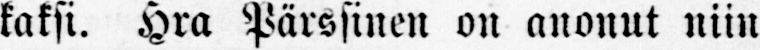kaksi. Hra Pärssinen on anonut niin
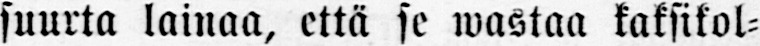suurta lainaa, että se wastaa kaksikol-
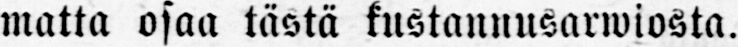matta osaa tästä kustannusarwiosta.
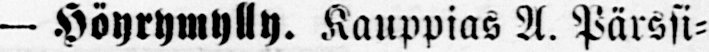— Höyrymylly. Kauppias A. Pärssi-
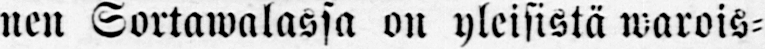nen Sortawalassa on yleisistä warois-
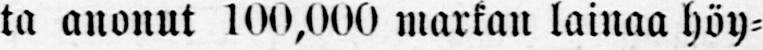ta anonut 100,000 markan lainaa höy-
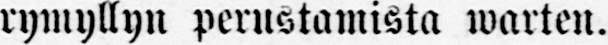rymyllyn perustamista warten.
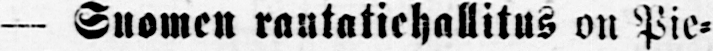— Suomen rautatiehallitus on Pie-
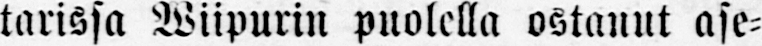tarissa Wiipurin puolella ostanut ase-
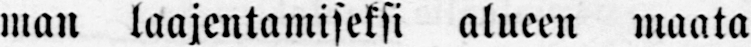man laajentamiseksi alueen maata
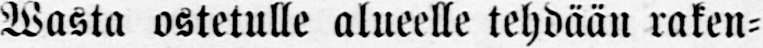Wasta ostetulle alueelle tehdään raken-
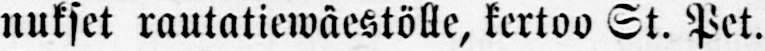nukset rautatiewäestölle, kertoo St. Pet.
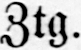Ztg.
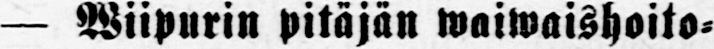— Wiipurin pitäjän waiwaishoito-
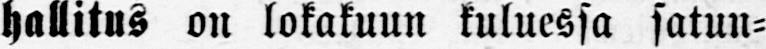hallitus on lokakuun kuluessa satun-
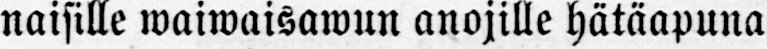naisille waiwaisawun anojille hätäapuna
